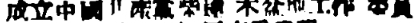成立中國共產黨柴達 木盆地工作 委員
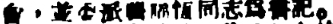會，並委派龔福恆同志爲書記。
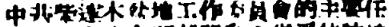中共柴達木盆地工作委員會的主要任
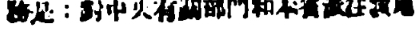務是：對中央有關部門和本省派往該地
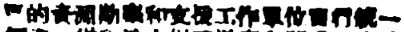區的資源勘查和支援工作單位實行統一
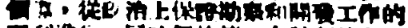領導，從政治上保證勘察和開發工作的
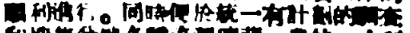順利進行。同時便於統一有計劃地調查
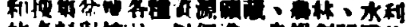和搜集盆地各種資源礦藏、農林、水利
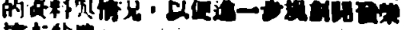的資料與情況，以便進一步規劃開發柴
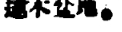達木盆地。
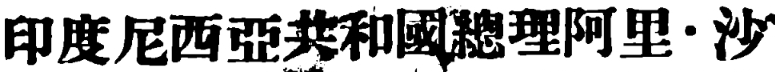印度尼西亞共和國總理阿里·沙
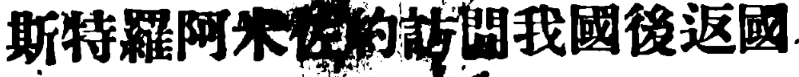斯特羅阿米佐約訪問我國後返國
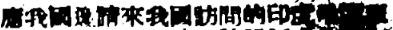應我國邀請來我國訪問的印度尼西亞
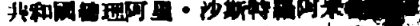共和國總理阿里・沙斯特羅阿米佐約及其
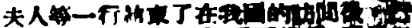夫人等一行結束了在我國的訪問後，並
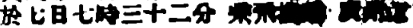於七日七時三十二分 乘飛機從 廣州返
